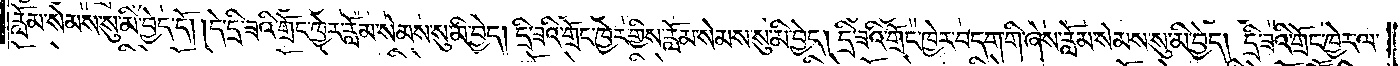རློམ་སེམས་སུ་མི་བྱེད་དོ། །དེ་དྲི་ཟའི་གྲོང་ཁྱེར་རློམ་སེམས་སུ་མི་བྱེད། དྲི་ཟའི་གྲོང་ཁྱེར་གྱིས་རློམ་སེམས་སུ་མི་བྱེད། དྲི་ཟའི་གྲོང་ཁྱེར་བདག་གི་ཞེས་རློམ་སེམས་སུ་མི་བྱེད། དྲི་ཟའི་གྲོང་ཁྱེར་ལ་
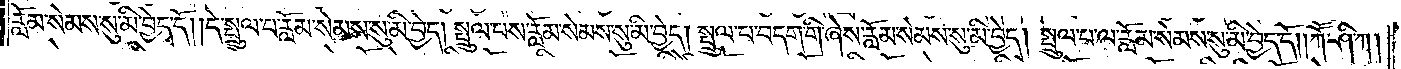རློམ་སེམས་སུ་མི་བྱེད་དོ། །དེ་སྤྲུལ་པ་རློམ་སེམས་སུ་མི་བྱེད། སྤྲུལ་པས་རློམ་སེམས་སུ་མི་བྱེད། སྤྲུལ་པ་བདག་གི་ཞེས་རློམ་སེམས་སུ་མི་བྱེད། སྤྲུལ་པ་ལ་རློམ་སེམས་སུ་མི་བྱེད་དོ། །ཀཽ་ཤི་ཀ།
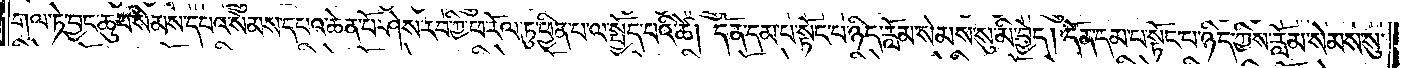གལ་ཏེ་བྱང་ཆུབ་སེམས་དཔའ་སེམས་དཔའ་ཆེན་པོ་ཤེས་རབ་ཀྱི་ཕ་རོལ་ཏུ་ཕྱིན་པ་ལ་སྤྱོད་པའི་ཚེ། དོན་དམ་པ་སྟོང་པ་ཉིད་རློམ་སེམས་སུ་མི་བྱེད། དོན་དམ་པ་སྟོང་པ་ཉིད་ཀྱིས་རློམ་སེམས་སུ་
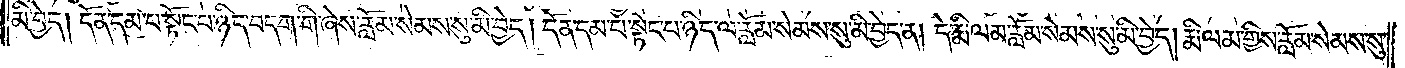མི་བྱེད། དོན་དམ་པ་སྟོང་པ་ཉིད་བདག་གི་ཞེས་རློམ་སེམས་སུ་མི་བྱེད། དོན་དམ་པ་སྟོང་པ་ཉིད་ལ་རློམ་སེམས་སུ་མི་བྱེད་ན། དེ་རྨི་ལམ་རློམ་སེམས་སུ་མི་བྱེད། རྨི་ལམ་གྱིས་རློམ་སེམས་སུ་
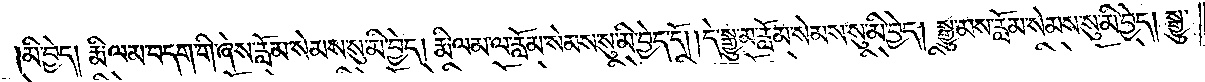མི་བྱེད། རྨི་ལམ་བདག་གི་ཞེས་རློམ་སེམས་སུ་མི་བྱེད། རྨི་ལམ་ལ་རློམ་སེམས་སུ་མི་བྱེད་དོ། །དེ་སྒྱུ་མ་རློམ་སེམས་སུ་མི་བྱེད། སྒྱུ་མས་རློམ་སེམས་སུ་མི་བྱེད། སྒྱུ་
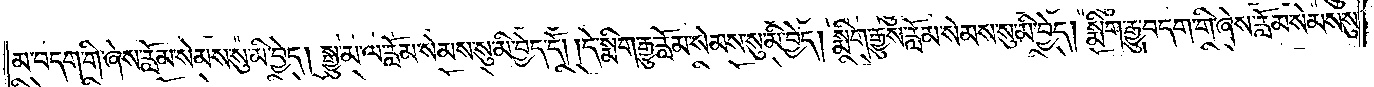མ་བདག་གི་ཞེས་རློམ་སེམས་སུ་མི་བྱེད། སྒྱུ་མ་ལ་རློམ་སེམས་སུ་མི་བྱེད་དོ། །དེ་སྨིག་རྒྱུ་རློམ་སེམས་སུ་མི་བྱེད། སྨིག་རྒྱུས་རློམ་སེམས་སུ་མི་བྱེད། སྨིག་རྒྱུ་བདག་གི་ཞེས་རློམ་སེམས་སུ་
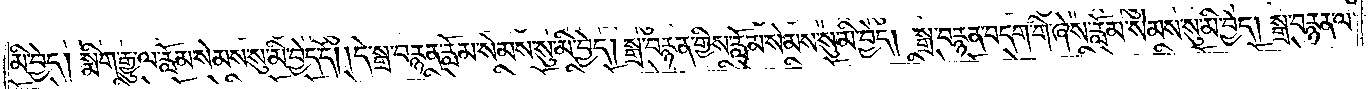མི་བྱེད། སྨིག་རྒྱུ་ལ་རློམ་སེམས་སུ་མི་བྱེད་དོ། །དེ་སྒྲ་བརྙན་རློམ་སེམས་སུ་མི་བྱེད། སྒྲ་བརྙན་གྱིས་རློམ་སེམས་སུ་མི་བྱེད། སྒྲ་བརྙན་བདག་གི་ཞེས་རློམ་སེམས་སུ་མི་བྱེད། སྒྲ་བརྙན་ལ་
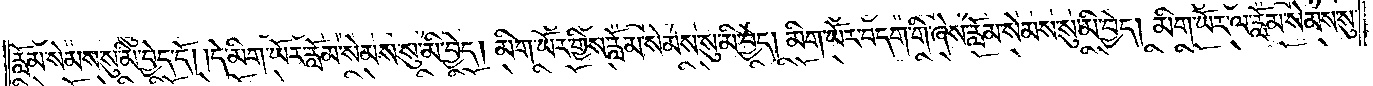རློམ་སེམས་སུ་མི་བྱེད་དོ། །དེ་མིག་ཡོར་རློམ་སེམས་སུ་མི་བྱེད། མིག་ཡོར་གྱིས་རློམ་སེམས་སུ་མི་བྱེད། མིག་ཡོར་བདག་གི་ཞེས་རློམ་སེམས་སུ་མི་བྱེད། མིག་ཡོར་ལ་རློམ་སེམས་སུ་
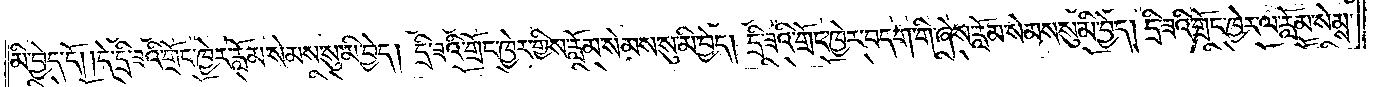མི་བྱེད་དོ། །དེ་དྲི་ཟའི་གྲོང་ཁྱེར་རློམ་སེམས་སུ་མི་བྱེད། དྲི་ཟའི་གྲོང་ཁྱེར་གྱིས་རློམ་སེམས་སུ་མི་བྱེད། དྲི་ཟའི་གྲོང་ཁྱེར་བདག་གི་ཞེས་རློམ་སེམས་སུ་མི་བྱེད། དྲི་ཟའི་གྲོང་ཁྱེར་ལ་རློམ་སེམས་
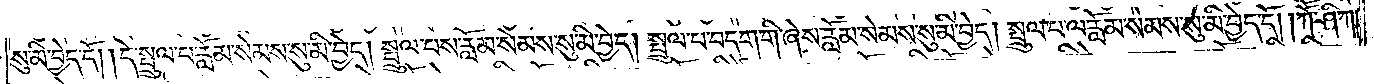སུ་མི་བྱེད་དོ། །དེ་སྤྲུལ་པ་རློམ་སེམས་སུ་མི་བྱེད། སྤྲུལ་པས་རློམ་སེམས་སུ་མི་བྱེད། སྤྲུལ་པ་བདག་གི་ཞེས་རློམ་སེམས་སུ་མི་བྱེད། སྤྲུལ་པ་ལ་རློམ་སེམས་སུ་མི་བྱེད་དོ། །ཀཽ་ཤི་ཀ།
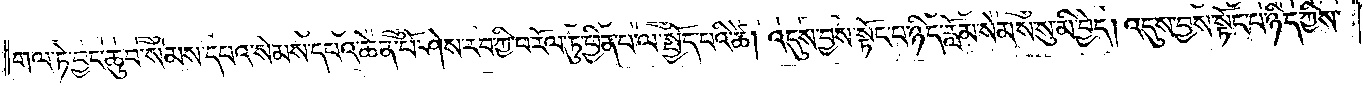གལ་ཏེ་བྱང་ཆུབ་སེམས་དཔའ་སེམས་དཔའ་ཆེན་པོ་ཤེས་རབ་ཀྱི་ཕ་རོལ་ཏུ་ཕྱིན་པ་ལ་སྤྱོད་པའི་ཚེ། འདུས་བྱས་སྟོང་པ་ཉིད་རློམ་སེམས་སུ་མི་བྱེད། འདུས་བྱས་སྟོང་པ་ཉིད་ཀྱིས་
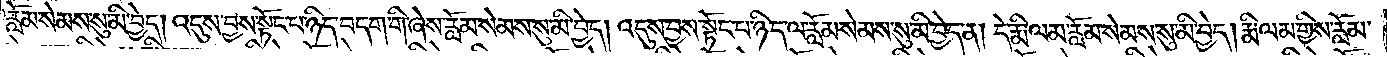རློམ་སེམས་སུ་མི་བྱེད། འདུས་བྱས་སྟོང་པ་ཉིད་བདག་གི་ཞེས་རློམ་སེམས་སུ་མི་བྱེད། འདུས་བྱས་སྟོང་པ་ཉིད་ལ་རློམ་སེམས་སུ་མི་བྱེད་ན། དེ་རྨི་ལམ་རློམ་སེམས་སུ་མི་བྱེད། རྨི་ལམ་གྱིས་རློམ་
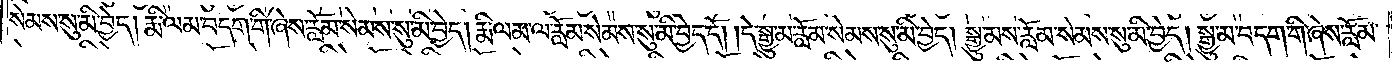སེམས་སུ་མི་བྱེད། རྨི་ལམ་བདག་གི་ཞེས་རློམ་སེམས་སུ་མི་བྱེད། རྨི་ལམ་ལ་རློམ་སེམས་སུ་མི་བྱེད་དོ། །དེ་སྒྱུ་མ་རློམ་སེམས་སུ་མི་བྱེད། སྒྱུ་མས་རློམ་སེམས་སུ་མི་བྱེད། སྒྱུ་མ་བདག་གི་ཞེས་རློམ་
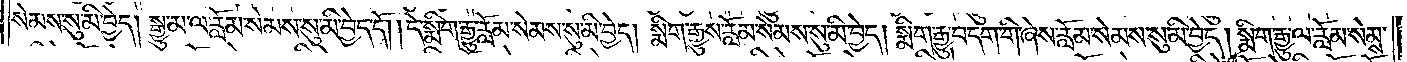སེམས་སུ་མི་བྱེད། སྒྱུ་མ་ལ་རློམ་སེམས་སུ་མི་བྱེད་དོ། །དེ་སྨིག་རྒྱུ་རློམ་སེམས་སུ་མི་བྱེད། སྨིག་རྒྱུས་རློམ་སེམས་སུ་མི་བྱེད། སྨིག་རྒྱུ་བདག་གི་ཞེས་རློམ་སེམས་སུ་མི་བྱེད། སྨིག་རྒྱུ་ལ་རློམ་སེམས་
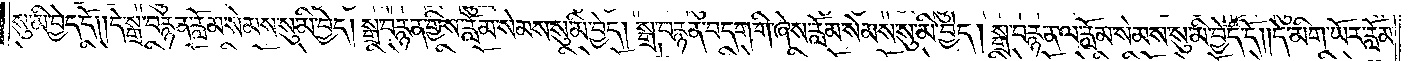སུ་མི་བྱེད་དོ། །དེ་སྒྲ་བརྙན་རློམ་སེམས་སུ་མི་བྱེད། སྒྲ་བརྙན་གྱིས་རློམ་སེམས་སུ་མི་བྱེད། སྒྲ་བརྙན་བདག་གི་ཞེས་རློམ་སེམས་སུ་མི་བྱེད། སྒྲ་བརྙན་ལ་རློམ་སེམས་སུ་མི་བྱེད་དོ། །དེ་མིག་ཡོར་རློམ་
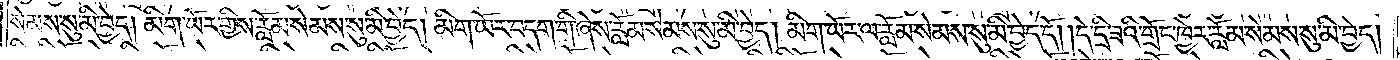སེམས་སུ་མི་བྱེད། མིག་ཡོར་གྱིས་རློམ་སེམས་སུ་མི་བྱེད། མིག་ཡོར་བདག་གི་ཞེས་རློམ་སེམས་སུ་མི་བྱེད། མིག་ཡོར་ལ་རློམ་སེམས་སུ་མི་བྱེད་དོ། །དེ་དྲི་ཟའི་གྲོང་ཁྱེར་རློམ་སེམས་སུ་མི་བྱེད།
